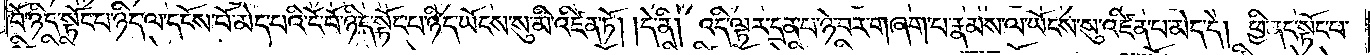བོ་ཉིད་སྟོང་པ་ཉིད་ལ་དངོས་པོ་མེད་པའི་ངོ་བོ་ཉིད་སྟོང་པ་ཉིད་ཡོངས་སུ་མི་འཛིན་ཏོ། །དེ་ནི། འདི་ལྟར་དྲན་པ་ཉེ་བར་བཞག་པ་རྣམས་ལ་ཡོངས་སུ་འཛིན་པ་མེད་དེ། ཕྱི་ནང་སྟོང་པ་
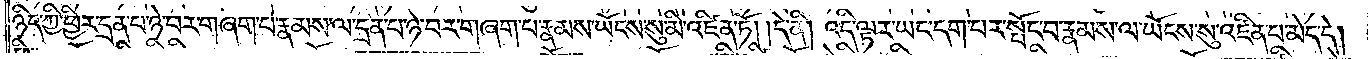ཉིད་ཀྱི་ཕྱིར་དྲན་པ་ཉེ་བར་གཞག་པ་རྣམས་ལ་དྲན་པ་ཉེ་བར་བཞག་པ་རྣམས་ཡོངས་སུ་མི་འཛིན་ཏོ། །དེ་ནི། འདི་ལྟར་ཡང་དག་པར་སྤོང་བ་རྣམས་ལ་ཡོངས་སུ་འཛིན་པ་མེད་དེ།
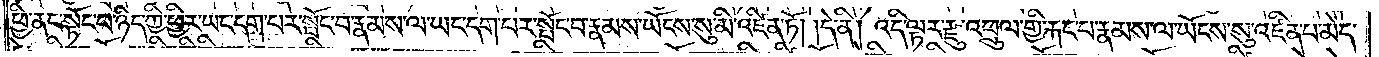ཕྱི་ནང་སྟོང་པ་ཉིད་ཀྱི་ཕྱིར་ཡང་དག་པར་སྤོང་བ་རྣམས་ལ་ཡང་དག་པར་སྤོང་པ་རྣམས་ཡོངས་སུ་མི་འཛིན་ཏོ། །དེ་ནི། འདི་ལྟར་རྫུ་འཕྲུལ་གྱི་རྐང་པ་རྣམས་ལ་ཡོངས་སུ་འཛིན་པ་མེད་
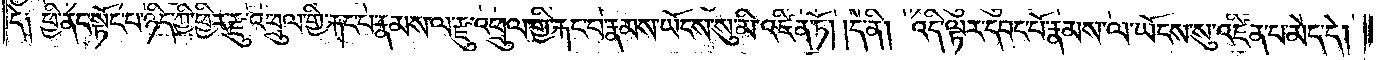དེ༑ ཕྱི་ནང་སྟོང་པ་ཉིད་ཀྱི་ཕྱིར་རྫུ་འཕྲུལ་གྱི་རྐང་པ་རྣམས་ལ་རྫུ་འཕྲུལ་གྱི་རྐང་པ་རྣམས་ཡོངས་སུ་མི་འཛིན་ཏོ། །དེ་ནི། འདི་ལྟར་དབང་པོ་རྣམས་ལ་ཡོངས་སུ་འཛིན་པ་མེད་དེ།
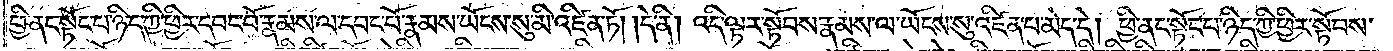ཕྱི་ནང་སྟོང་པ་ཉིད་ཀྱི་ཕྱིར་དབང་པོ་རྣམས་ལ་དབང་པོ་རྣམས་ཡོངས་སུ་མི་འཛིན་ཏོ། །དེ་ནི། འདི་ལྟར་སྟོབས་རྣམས་ལ་ཡོངས་སུ་འཛིན་པ་མེད་དེ། ཕྱི་ནང་སྟོང་པ་ཉིད་ཀྱི་ཕྱིར་སྟོབས་
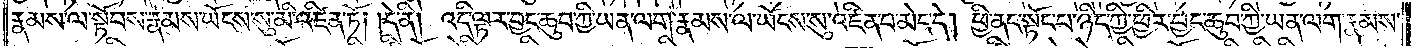རྣམས་ལ་སྟོབས་རྣམས་ཡོངས་སུ་མི་འཛིན་ཏོ། །དེ་ནི། འདི་ལྟར་བྱང་ཆུབ་ཀྱི་ཡན་ལག་རྣམས་ལ་ཡོངས་སུ་འཛིན་པ་མེད་དེ། ཕྱི་ནང་སྟོང་པ་ཉིད་ཀྱི་ཕྱིར་བྱང་ཆུབ་ཀྱི་ཡན་ལག་རྣམས་
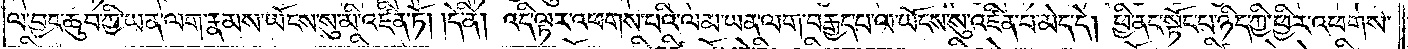ལ་བྱང་ཆུབ་ཀྱི་ཡན་ལག་རྣམས་ཡོངས་སུ་མི་འཛིན་ཏོ། །དེ་ནི། འདི་ལྟར་འཕགས་པའི་ལམ་ཡན་ལག་བརྒྱད་པ་ལ་ཡོངས་སུ་འཛིན་པ་མེད་དེ། ཕྱི་ནང་སྟོང་པ་ཉིད་ཀྱི་ཕྱིར་འཕགས་
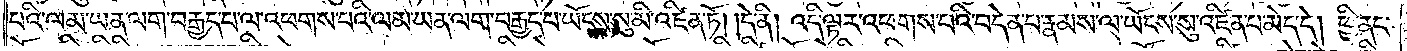པའི་ལམ་ཡན་ལག་བརྒྱད་པ་ལ་འཕགས་པའི་ལམ་ཡན་ལག་བརྒྱད་པ་ཡོངས་སུ་མི་འཛིན་ཏོ། །དེ་ནི། འདི་ལྟར་འཕགས་པའི་བདེན་པ་རྣམས་ལ་ཡོངས་སུ་འཛིན་པ་མེད་དེ། ཕྱི་ནང་
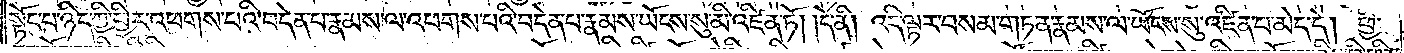སྟོང་པ་ཉིད་ཀྱི་ཕྱིར་འཕགས་པའི་བདེན་པ་རྣམས་ལ་འཕགས་པའི་བདེན་པ་རྣམས་ཡོངས་སུ་མི་འཛིན་ཏོ། །དེ་ནི། འདི་ལྟར་བསམ་གཏན་རྣམས་ལ་ཡོངས་སུ་འཛིན་པ་མེད་དེ། ཕྱི་
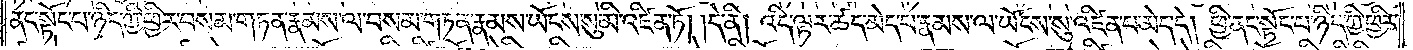ནང་སྟོང་པ་ཉིད་ཀྱི་ཕྱིར་བསམ་གཏན་རྣམས་ལ་བསམ་གཏན་རྣམས་ཡོངས་སུ་མི་འཛིན་ཏོ། །དེ་ནི། འདི་ལྟར་ཚད་མེད་པ་རྣམས་ལ་ཡོངས་སུ་འཛིན་པ་མེད་དེ། ཕྱི་ནང་སྟོང་པ་ཉིད་ཀྱི་ཕྱིར་
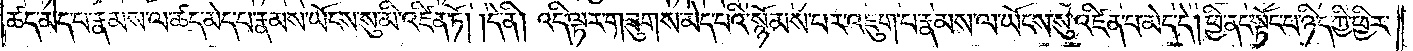ཚད་མེད་པ་རྣམས་ལ་ཚད་མེད་པ་རྣམས་ཡོངས་སུ་མི་འཛིན་ཏོ། །དེ་ནི། འདི་ལྟར་གཟུགས་མེད་པའི་སྙོམས་པར་འཇུག་པ་རྣམས་ལ་ཡོངས་སུ་འཛིན་པ་མེད་དེ། ཕྱི་ནང་སྟོང་པ་ཉིད་ཀྱི་ཕྱིར་
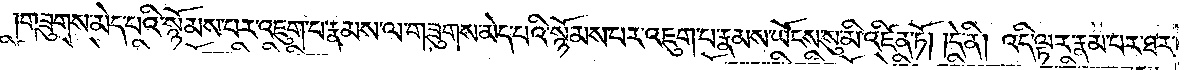གཟུགས་མེད་པའི་སྙོམས་པར་འཇུག་པ་རྣམས་ལ་གཟུགས་མེད་པའི་སྙོམས་པར་འཇུག་པ་རྣམས་ཡོངས་སུ་མི་འཛིན་ཏོ། །དེ་ནི། འདི་ལྟར་རྣམ་པར་ཐར་
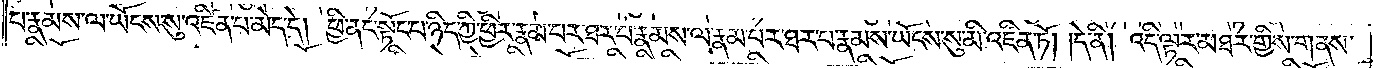པ་རྣམས་ལ་ཡོངས་སུ་འཛིན་པ་མེད་དེ། ཕྱི་ནང་སྟོང་པ་ཉིད་ཀྱི་ཕྱིར། རྣམ་པར་ཐར་པ་རྣམས་ལ་རྣམ་པར་ཐར་པ་རྣམས་ཡོངས་སུ་མི་འཛིན་ཏོ། །དེ་ནི། འདི་ལྟར་མཐར་གྱིས་གནས་
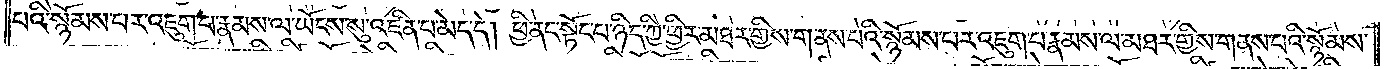པའི་སྙོམས་པར་འཇུག་པ་རྣམས་ལ་ཡོངས་སུ་འཛིན་པ་མེད་དེ། ཕྱི་ནང་སྟོང་པ་ཉིད་ཀྱི་ཕྱིར་མཐར་གྱིས་གནས་པའི་སྙོམས་པར་འཇུག་པ་རྣམས་ལ་མཐར་གྱིས་གནས་པའི་སྙོམས་
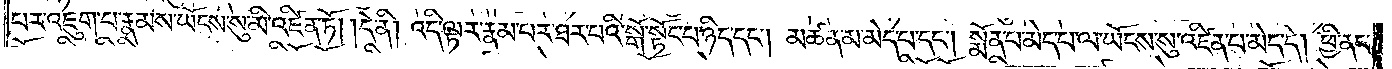པར་འཇུག་པ་རྣམས་ཡོངས་སུ་མི་འཛིན་ཏོ། །དེ་ནི། འདི་ལྟར་རྣམ་པར་ཐར་པའི་སྒོ་སྟོང་པ་ཉིད་དང༌། མཚན་མ་མེད་པ་དང༌། སྨོན་པ་མེད་པ་ལ་ཡོངས་སུ་འཛིན་པ་མེད་དེ། ཕྱི་ནང་
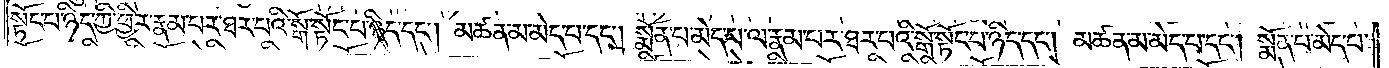སྟོང་པ་ཉིད་ཀྱི་ཕྱིར་རྣམ་པར་ཐར་པའི་སྒོ་སྟོང་པ་ཉིད་དང༌། མཚན་མ་མེད་པ་དང༌། སྨོན་པ་མེད་པ་ལ་རྣམ་པར་ཐར་པའི་སྒོ་སྟོང་པ་ཉིད་དང༌། མཚན་མ་མེད་པ་དང༌། སྨོན་པ་མེད་པ་
